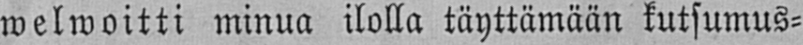welwoitti minua ilolla täyttämään kutsumus-
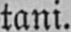tani.
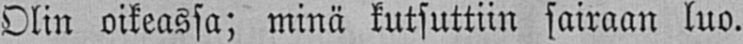Olin oikeassa; minä kutsuttiin sairaan luo.
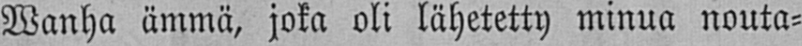Wanha ämmä, joka oli lähetetty minua nouta-
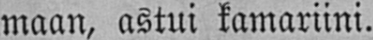maan, astui kamariini.
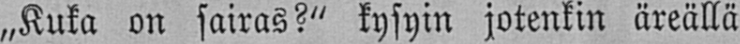„Kuka on sairas?" kysyin jotenkin äreällä
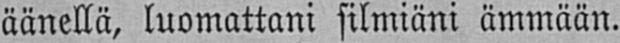äänellä, luomattani silmiäni ämmään.
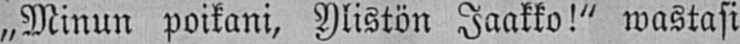„Minun poikani, Ylistön Jaakko!" wastasi
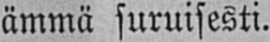ämmä suruisesti.
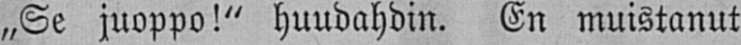„Se juoppo!" huudahdin. En muistanut
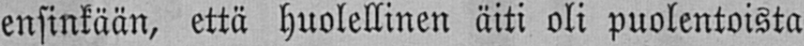ensinkään, että huolellinen äiti oli puolentoista
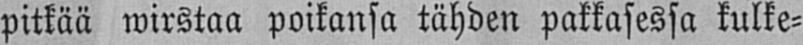pitkää wirstaa poikansa tähden pakkasessa kulke-
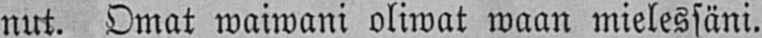nut. Omat waiwani oliwat waan mielessäni.
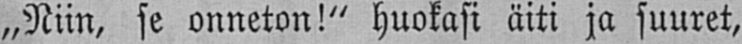„Niin, se onneton!" huokasi äiti ja suuret,
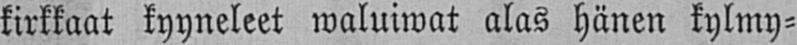kirkkaat kyyneleet waluiwat alas hänen kylmy-
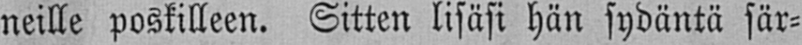neille poskilleen. Sitten lisäsi hän sydäntä sär-
